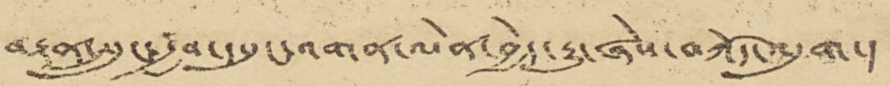བརྟན་སྲུང་རྒྱབབ་དཔུང་འགན་ལེན་བྱེད་རྒྱུ་ཞེས་བཀོད་འདུག་།
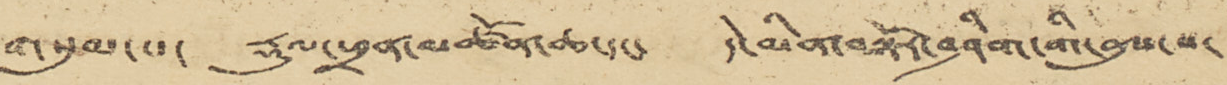གསུམ་པ་ རྡུལ་ཕྲན་མཚོན་ཆ་དང་ དེ་མིན་བསྟོར་བཤིག་གི་ནུས་པ་
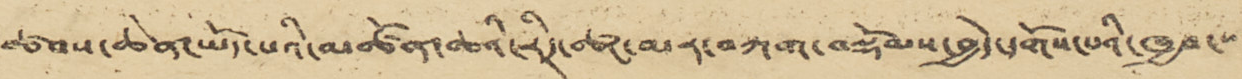ཚབས་ཆེན་ཡོད་པའི་མཚོན་ཆའི་རིཊ་ཚང་མར་བཀག་བསྡོམས་བྱེད་དགོས་པའི་ཁྱབ་་་་
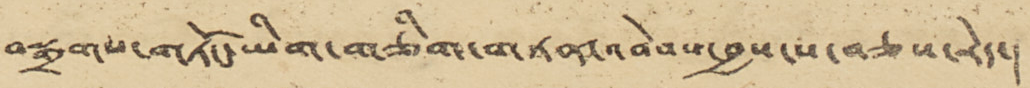བསྒྲགས་གཏོང་ཡིག་གཅིག་གཏན་འབེབས་བྱས་པ་བཅས་རེད་།
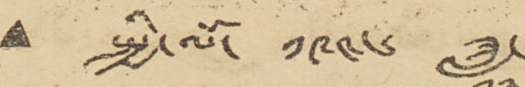• སྤྱི་ལོ་ ༡༩༤༦ ཟླ་
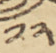༡༢
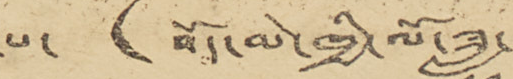པ་ (བོད་མེ་ཁྱི་ལོ་ཟླ་
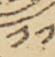༡༡
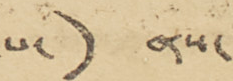པ་) ནས་
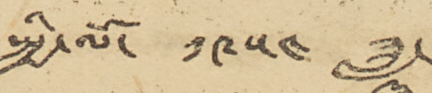སྤྱི་ལོ་ ༡༩༥༤ ཟླ་
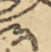༣
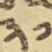༣༡
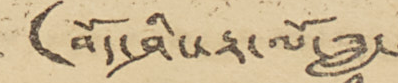(བོད་ཤིང་རྟ་ལོ་ཟླ་
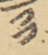༡༡
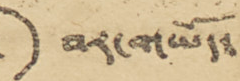བར་གཡོད་
